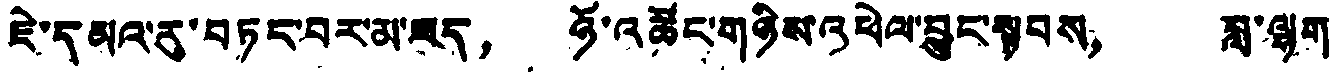ཇེ་དམའ་རུ་བཏང་བར་མ་ཟད， ཉོ་འཚོང་གཉིས་འཕེལ་བྱུང་སྟབས， བླ་ལྷག
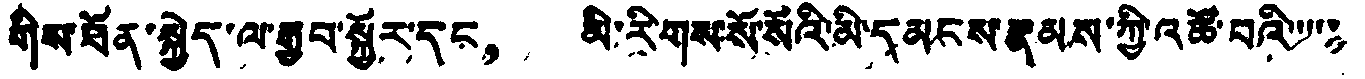གིས་ཐོན་སྐྱེད་ལ་རྒྱབ་སྐྱོར་དང， མི་རིགས་སོ་སོའི་མི་དམངས་རྣམས་ཀྱི་འཚོ་བའི་་་་་
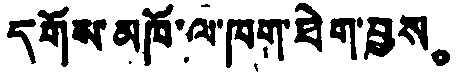དགོས་མཁོ་ལ་ཁག་ཐེག་བྱས。
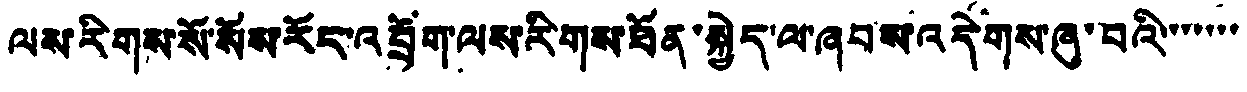ལས་རིགས་སོ་སོས་རོང་འབྲོག་ལས་རི་གས་ཐོན་སྐྱེད་ལ་ཞབས་འདེགས་ཞུ་བའི་་་་་་་
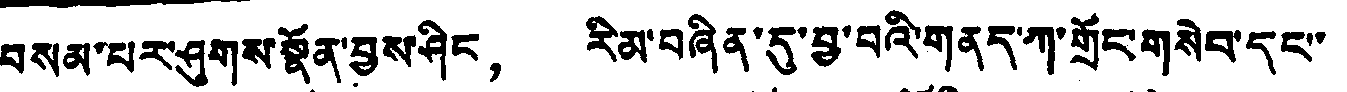བསམ་པར་ཤུགས་སྣོན་བྱས་ཤིང， རིམ་བཞིན་དུ་བྱ་བའི་གནད་ཀ་གྲོང་གསེབ་དང་
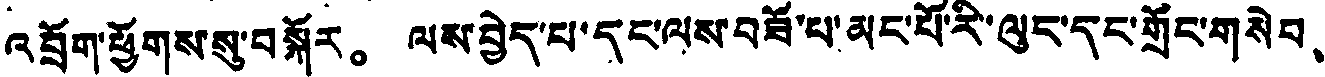འབྲོག་ཕྱོགས་སུ་བསྐོར。 ལས་བྱེད་པ་དང་ལས་བཟོ་པ་མང་པོ་རི་ལུང་དང་གྲོང་གསེབ、
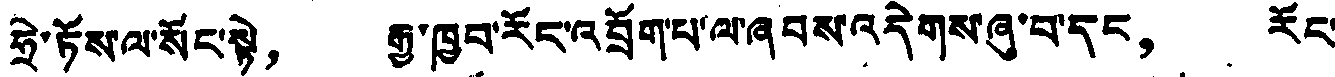ཧྲེ་ཏོས་ལ་སོང་སྟེ， རྒྱ་ཁྱབ་རོང་འབྲོག་པ་ལ་ཞབས་འདེགས་ཞུ་བ་དང， རོང་
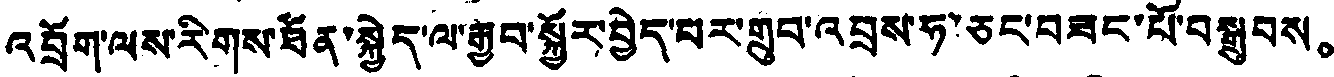འབྲོག་ལས་རིགས་ཐོན་སྐྱེད་ལ་རྒྱབ་སྐྱོར་བྱེད་པར་གྲུབ་འབྲས་ཧ་ཅང་བཟང་པོ་བསྒྲུབས。
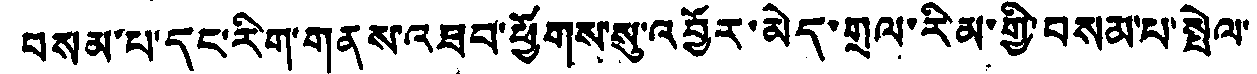བསམ་པ་དང་རིག་གནས་འཐབ་ཕྱོགས་སུ་འབྱོར་མེད་གྲལ་རིམ་གྱི་བསམ་པ་སྤེལ་
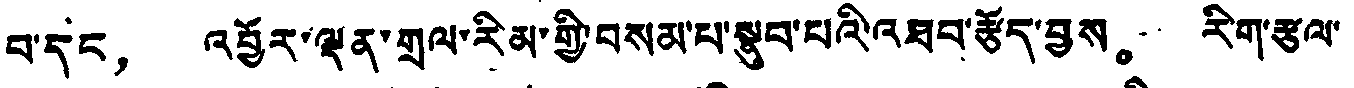བ་དང， འབྱོར་ལྡན་གྲལ་རིམ་གྱི་བསམ་པ་སྣུབ་པའི་འཐབ་རྩོད་བྱས。 རིག་རྩལ་
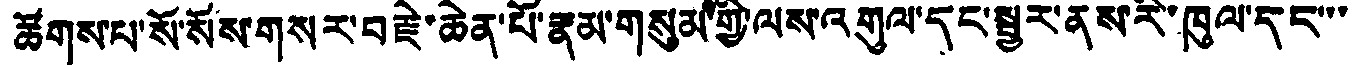ཚོགས་པ་སོ་སོས་གསར་བརྗེ་ཆེན་པོ་རྣམ་གསུམ་གྱི་ལས་འགུལ་དང་སྦྱར་ནས་རི་ཁུལ་དང་་་
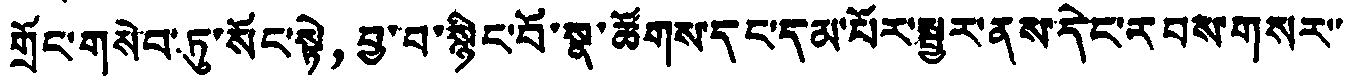གྲོང་གསེབ་ཏུ་སོང་སྟེ， བྱ་བ་སྙིང་པོ་སྣ་ཚོགས་དང་དམ་པོར་སྦྱར་ནས་དེང་རབས་གསར་་
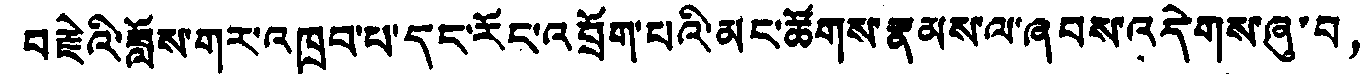བརྗེའི་ཟློས་གར་འཁྲབ་པ་དང་རོང་འབྲོག་པའི་མང་ཚོགས་རྣམས་ལ་ཞབས་འདེགས་ཞུ་བ，
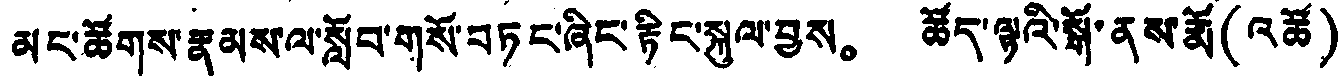མང་ཚོགས་རྣམས་ལ་སློབ་གསོ་བཏང་ཞིང་རྟིང་སྐུལ་བྱས。 ཚོད་ལྟའི་སྒོ་ནས་རྨོ(འཚོ)
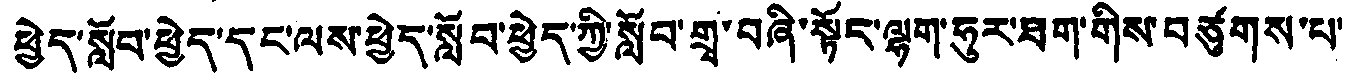ཕྱེད་སློབ་ཕྱེད་དང་ལས་ཕྱེད་སློབ་ཕྱེད་ཀྱི་སློབ་གྲྭ་བཞི་སྟོང་ལྷག་ཧུར་ཐག་གིས་བཙུགས་པ་
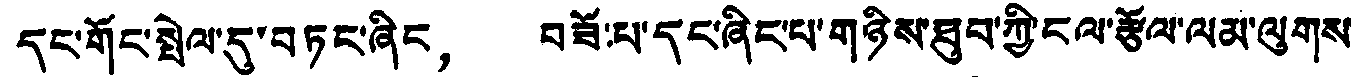དང་གོང་སྤེལ་དུ་བཏང་ཞིང， བཟོ་པ་དང་ཞིང་པ་གཉིས་ཐུབ་ཀྱི་ངལ་རྩོལ་ལམ་ལུགས་
